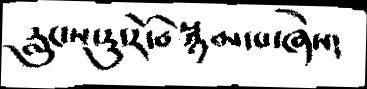རླུང་ས་རུ་ངོ་བསྙམ་པ་ཞེས།
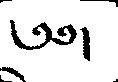༅།
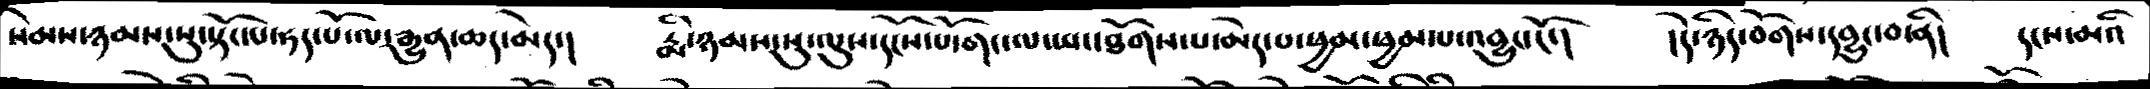སེམས་ཉམས་སུ་སྟོང་པ་ཧད་པོ་ལ་རྒྱུན་ཆད་མེད་།    རྨི་ཉམས་སུ་ལུས་དངོས་པོ་གང་ལ་ཡང་ཐོགས་པ་མེད་པ་ཕྱམ་པ་འབྱུང་ངོ་།   །དེ་ཉིད་བགོས་དབྱུང་བ་ནི།   དངས་མའི
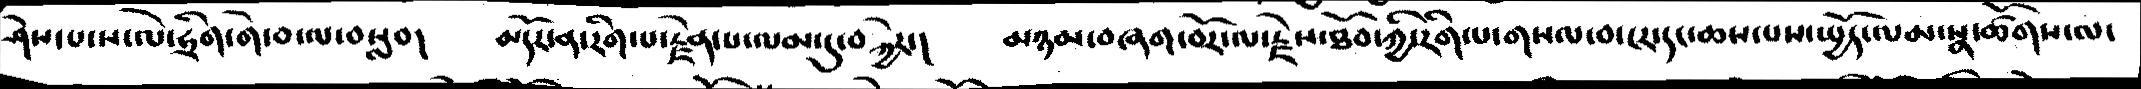ཤེས་པ་ས་ལེ་ཧྲིག་གེ་བ་ལ་བསླབ།   མདོར་ན་རིག་པ་རྗེན་པ་ལམ་དུ་བ་སྐྱེར་།   མཉམ་བཞག་བོར་ལ་རྗེས་ཐོབ་ཀྱི་རིག་པ་གསལ་བ་ངར་དང་ཆས་པས་ཡྱོད་ལམ་སྣ་ཚོགས་ལ་
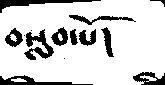བསླབ་པོ།
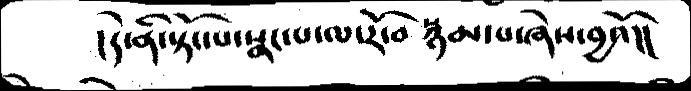། དེ་ནི་སྟོང་པ་སྣང་པ་ལ་རོ་བསྙམ་པ་ཞེས་བྱའོ།།
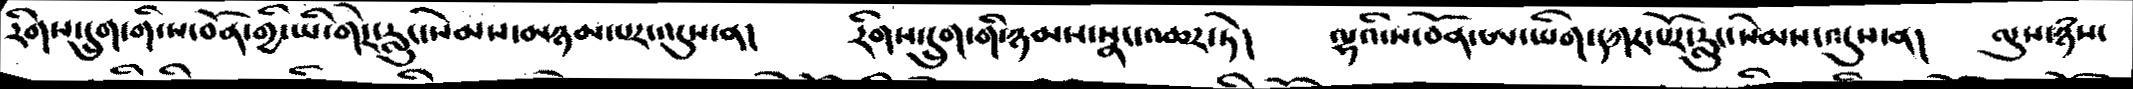རིགས་དྲུག་གི་ས་བོན་གྱི་ཡི་གེར་རླུང་སེམས་མཉམ་པར་འདུས་ན།    རིགས་དྲུག་གི་ཉམས་སྣང་འཆར་ཏེ།   ལྷའི་ས་བོན་ཨ་ཡིག་དཀར་པོར་རླུང་སེམས་འདུས་ན། ལུས་ཉཾས་
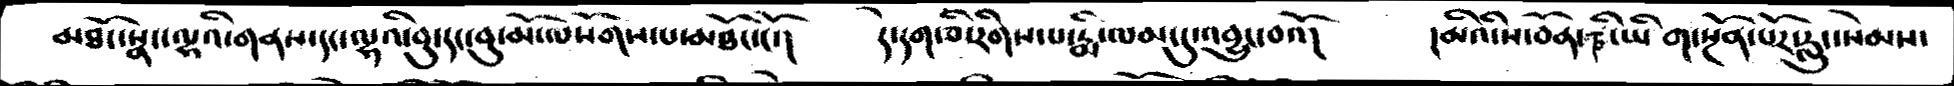མཐོང་སྣང་ལྷའི་གནས་དང་ལྷའི་བུ་དང་བུ་མོ་ལསོགས་པ་མཐོང་ངོ་།    དེ་དག་ཅི་རིགས་པ་རྨི་ལམ་དུ་འབྱུང་བའོ།   ། ། མིའི་ས་བོན་ཎི་ཡིག་སྔོན་པོར་རླུང་སེམས་
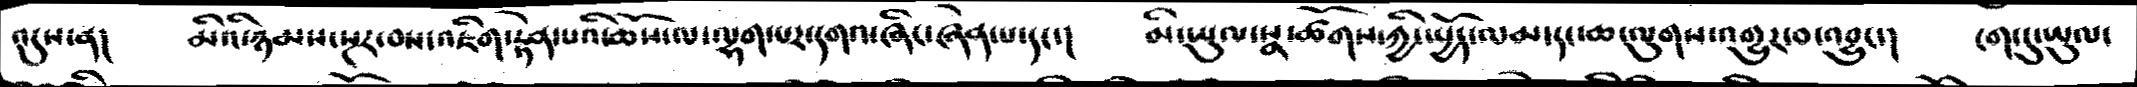འདུས་ན།   མིའི་ཉམས་སྔར་བས་འཇིག་རྟེན་པའི་ཆོས་ལ་ལྷག་པར་དགའ་ཞེན་པ་དང་།    མི་ཡུལ་སྣ་ཚོགས་ཀྱི་ཡྱོད་ལམ་དང་ཆ་ལུགས་འགྱུར་བ་འབྱུང་།  ངག་དུ་ཡུལ་
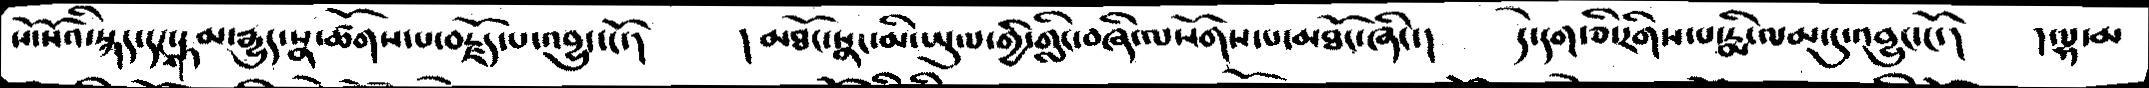སོ་སོའི་སྐད་དང་གཏམ་རྒྱུད་སྣ་ཚོགས་པ་བརྗོད་པ་འབྱུང་ངོ།   །མཐོང་སྣང་མི་ཡུལ་གྱི་གླི་གཞི་ལསོགས་པ་མཐོང་ཞིང་།   དེ་དག་ཅི་རིགས་པ་རྨི་ལམ་དུ་འབྱུང་ངོ་།   །ལྷ་མ
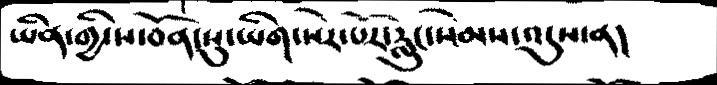ཡིན་གྱི་ས་བོན་སུ་ཡིག་སེར་པོར་རླུང་སེམས་འདུས་ན།
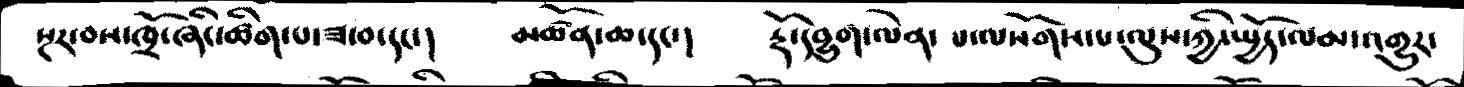སྔར་བས་ཁྲོ་ཞིང་ཚིག་པ་ཟ་བ་དང་།   མཚོན་ཆ་དང་།   རྡོ་དབྱུག་ལེན་པ་ལསོགས་པ་ལུས་ཀྱི་སྤྱོད་ལམ་འགྱུར་
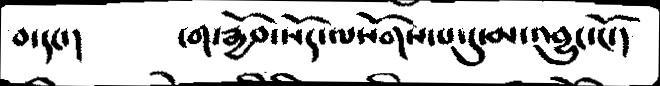བ་དང་།   ངག་རྒྱོབ་སོད་ལསོགས་པ་དུ་མ་འབྱུང་ངོ་།
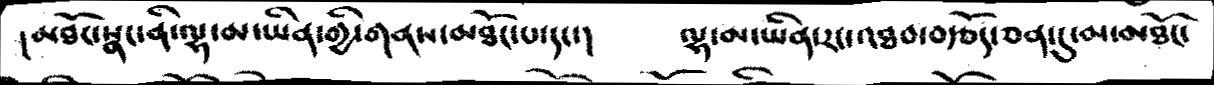།མཐོང་སྣང་ནི་ལྷ་མ་ཡིན་གྱི་གནས་མཐོང་པ་དང་།     ལྷ་མ་ཡིན་རང་འཐབ་བརྩོད་ཅན་དུ་མཐོང་
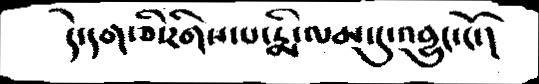དེ་དག་ཅི་རིགས་པ་རྨི་ལམ་དུ་འབྱུང་ངོ་།
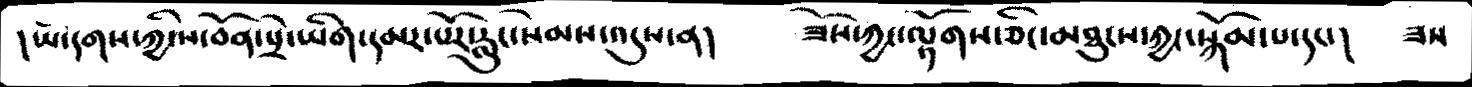། ཡོ་དགས་ཀྱི་ས་བོན་སྲེ་ཡིག་དམར་པོར་རླུང་སེམས་འདུས་ན།   ཟོས་ཀྱང་ལྟོགས་ཅིང་མཐུངས་ཀྱང་སྐོམས་དང་།   ཟས
